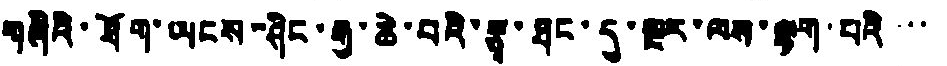གཞིའི་ཐོག་ཡངས་ཤིང་རྒྱ་ཆེ་བའི་རྩྭ་ཐང་དུ་སྔར་ལས་ལྷག་པའི་་་
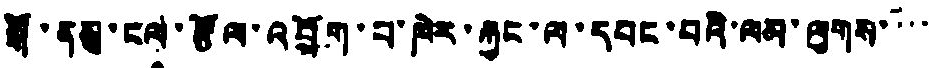སྒོ་ནས་ངལ་རྩོལ་འབྲོག་པ་ཁེར་རྐྱང་ལ་དབང་བའི་ལམ་ལུགས་་་་
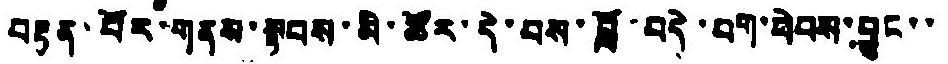བརྟན་པོར་གནས་སྟབས་མི་ཚོར་དེ་བས་བློ་བདེ་བག་ཕེབས་བྱུང་་
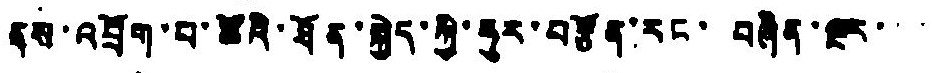ནས་འབྲོག་པ་ཚོའི་ཐོན་སྐྱེད་ཀྱི་ཧུར་བརྩོན་རང་བཞིན་སྔར་་་
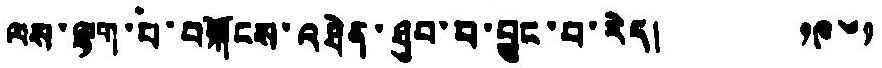ལས་ལྷག་པ་བསྐོངས་འཐེན་ཐུབ་པ་བླང་བ་རེད། ༡༩༦༡
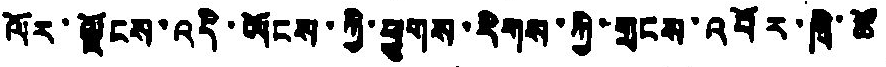ལོར་ལྗོངས་འདི་ཡོངས་ཀྱི་ཕྱུགས་རིགས་ཀྱི་གྲངས་འབོར་ཁྲི་ཚོ
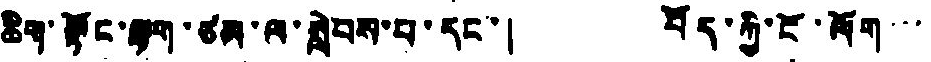ཆིག་སྟོང་ལྷག་ཙམ་ལ་སླེབས་པ་དང་། བོད་ཀྱི་ངོ་ལོག་་་
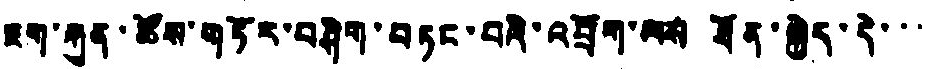ཇག་རྐུན་ཚོས་གཏོར་བཤིག་བཏང་བའི་འབྲོག་ལས ཐོན་སྐྱེད་དེ་་་
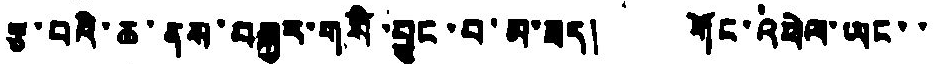རྩ་བའི་ཆ་ནས་བསྐྱར་གསོ་བྱུང་བ་མ་ཟད། གོང་འཕེལ་ཡང་་
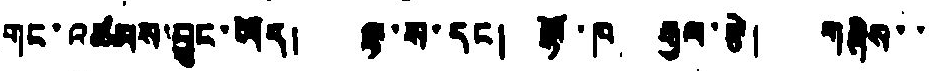གང་འཚམས་བྱུང་ཡེད། ལྷ་ས་དང། ལྷོ་ཁ རྒྱལ་རྩེ། གཞིས་་
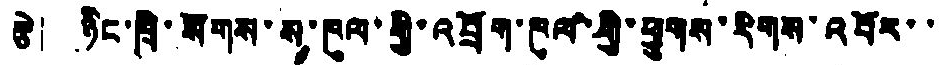རྩེ། ཉིང་ཁྲི་སགས་ས་ཁུལ་གྱི་འབྲོག་ཁུལ་གྱི་ཕྱུགས་རིགས་འབོར་་
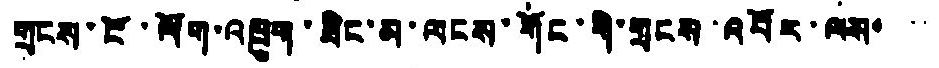གྲངས་ངོ་ལོག་འཁྲུག་ཟིང་མ་ལངས་གོང་གི་གྲངས་འབོར་ལས་་་
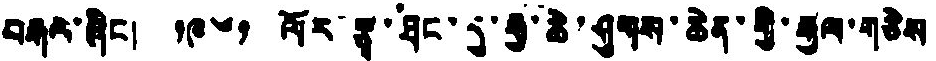བརྒལ་ཞིང། ༡༩༦༡ ལོར་རྩྭ་ཐང་དུ་རྒྱ་ཆེ་ཤུགས་ཆེན་གྱི་རྒྱལ་གཅེས
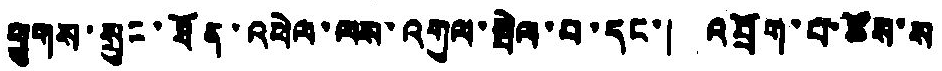ཕྱུགས་སྲུང་ཐོན་འཕེལ་ལས་འགུལ་སྤེལ་བ་དང་། འབྲོག་པ་ཚོས་ས
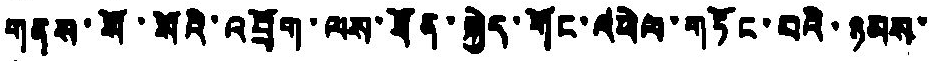གནས་སོ་སོའི་འབྲོག་ལས་ཐོན་སྐྱེད་གོང་འཕེལ་གཏོང་བའི་ཉམས་
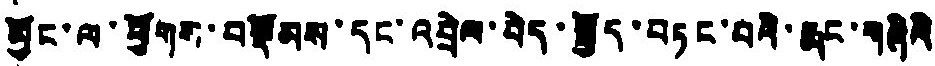མྱོང་ལ་ཕྱོགས་བསྡོམས་དང་འབྲེལ་བེད་སྤྱོད་བཏང་བའི་རྨང་གཞིའི
